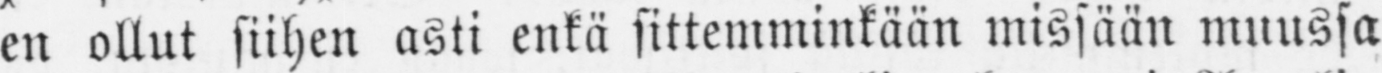en ollut siihen asti enkä sittemminkään missään muussa
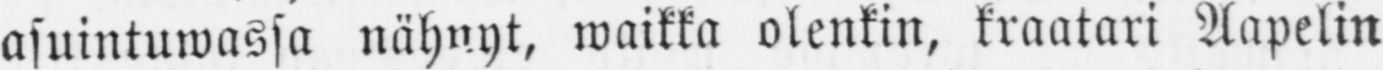asuintuwassa nähnyt, waikka olenkin, kraatari Aapelin
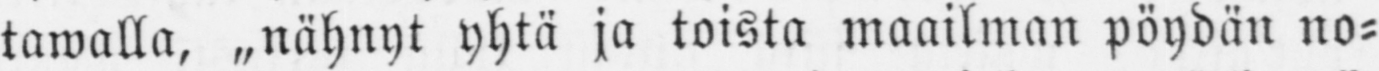tawalla, „nähnyt yhtä ja toista maailman pöydän no-
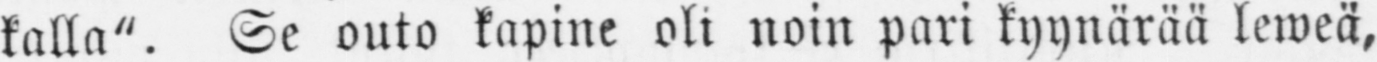kalla". Se outo kapine oli noin pari kyynärää leweä,
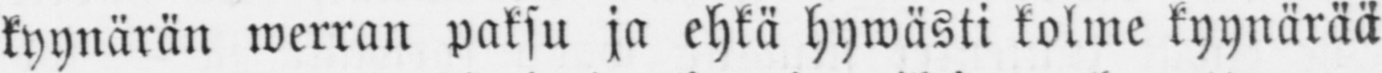kyynärän werran paksu ja ehkä hywästi kolme kyynärää
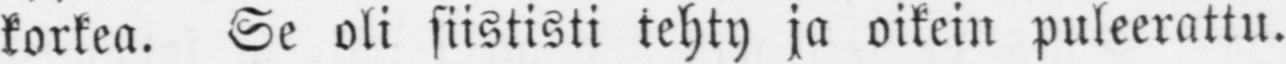korkea. Se oli siististi tehty ja oikein puleerattu.
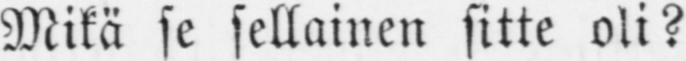Mikä se sellainen sitte oli?
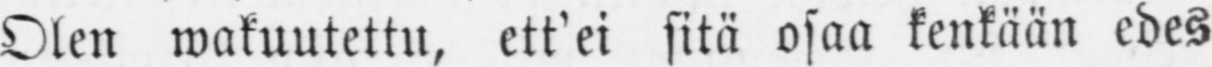Olen wakuutettu, ett'ei sitä osaa kenkään edes
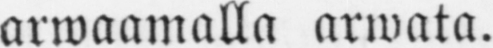arwaamalla arwata.
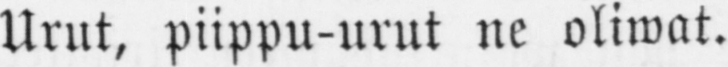Urut, piippu-urut ne oliwat.
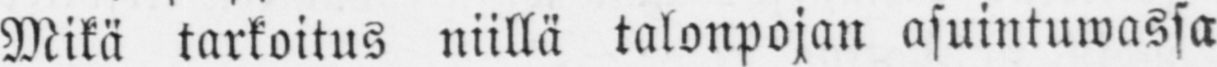Mikä tarkoitus niillä talonpojan asuintuwassa
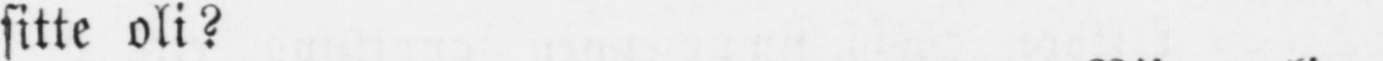sitte oli?
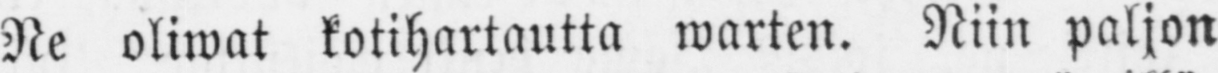Ne oliwat kotihartautta warten. Niin paljon
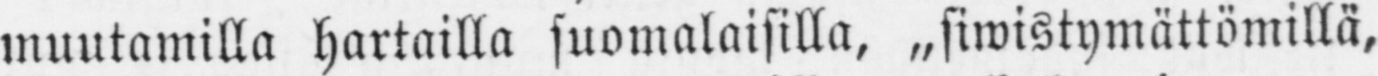muutamilla hartailla suomalaisilla, „siwistymättömillä,
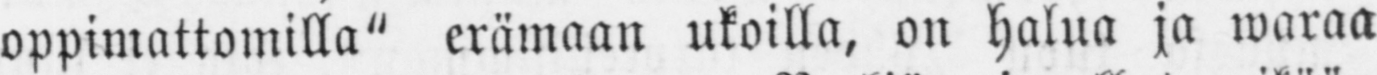oppimattomilla" erämaan ukoilta, on halua ja waraa
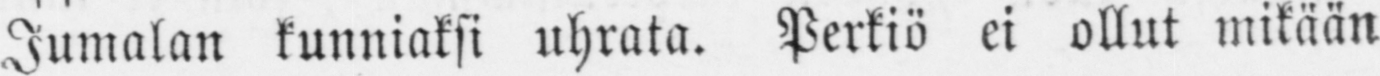Jumalan kunniaksi uhrata. Perkiö ei ollut mikään
